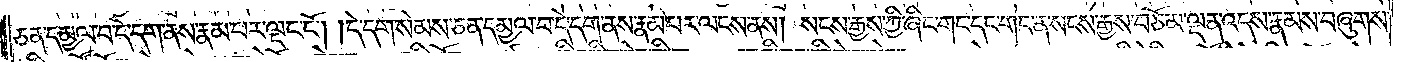ཅན་དམྱལ་བ་དེ་དག་ནས་རྣམ་པར་ལྡང་ངོ༌། །དེ་དག་སེམས་ཅན་དམྱལ་བ་དེ་དག་ནས་རྣམ་པར་ལངས་ནས། སངས་རྒྱས་ཀྱི་ཞིང་གང་དང་གང་ན་སངས་རྒྱས་བཅོམ་ལྡན་འདས་རྣམས་བཞུགས་
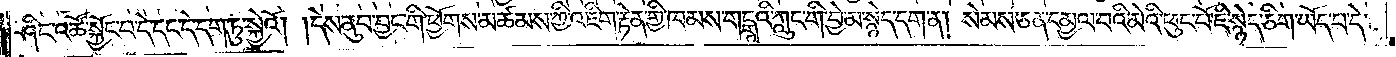ཤིང་འཚོ་སྐྱོང་བ་དེ་དང་དེ་དག་ཏུ་སྐྱེའོ། །དེས་ནུབ་བྱང་གི་ཕྱོགས་མཚམས་ཀྱི་འཇིག་རྟེན་གྱི་ཁམས་གངྒཱའི་ཀླུང་གི་བྱེ་མ་སྙེད་དག་ན། སེམས་ཅན་དམྱལ་བའི་མེའི་ཕུང་པོ་ཇི་སྙེད་ཅིག་ཡོད་པ་དེ་
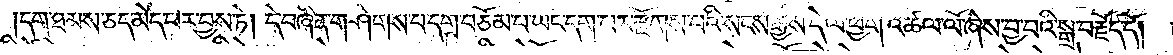དག་ཐམས་ཅད་མེད་པར་བྱས་ཏེ། དེ་བཞིན་གཤེགས་པ་དགྲ་བཅོམ་པ་ཡང་དག་པར་རྫོགས་པའི་སངས་རྒྱས་དེ་ལ་ཕྱག་འཚལ་ལོ་ཞེས་བྱ་བའི་སྒྲ་བརྗོད་དོ། །
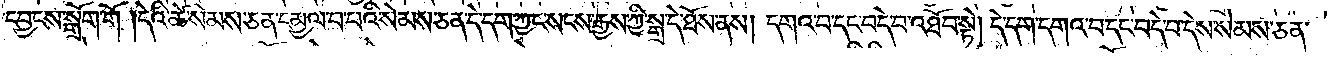དབྱངས་སྒྲག་གོ །དེའི་ཚེ་སེམས་ཅན་དམྱལ་བ་པའི་སེམས་ཅན་དེ་དག་ཀྱང་སངས་རྒྱས་ཀྱི་སྒྲ་དེ་ཐོས་ནས། དགའ་བ་དང་བདེ་བ་འཐོབ་སྟེ། དེ་དག་དགའ་བ་དང་བདེ་བ་དེས་སེམས་ཅན་
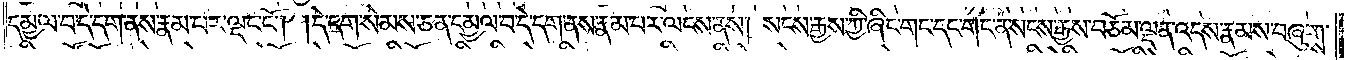དམྱལ་བ་དེ་དག་ནས་རྣམ་པར་ལྡང་ངོ༌། །དེ་དག་སེམས་ཅན་དམྱལ་བ་དེ་དག་ནས་རྣམ་པར་ལངས་ནས་སངས་རྒྱས་ཀྱི་ཞིང་གང་དང་གང་ན། སངས་རྒྱས་བཅོམ་ལྡན་འདས་རྣམས་བཞུགས་
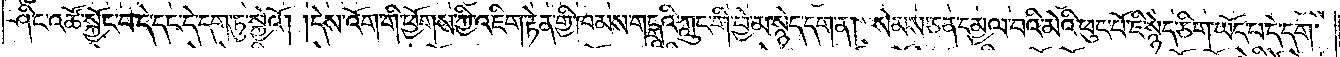ཤིང་འཚོ་སྐྱོང་བ་དེ་དང་དེ་དག་ཏུ་སྐྱེའོ། །དེས་འོག་གི་ཕྱོགས་ཀྱི་འཇིག་རྟེན་གྱི་ཁམས་གངྒཱའི་ཀླུང་གི་བྱེ་མ་སྙེད་དག་ན། སེམས་ཅན་དམྱལ་བའི་མེའི་ཕུང་པོ་ཇི་སྙེད་ཅིག་ཡོད་པ་དེ་དག་
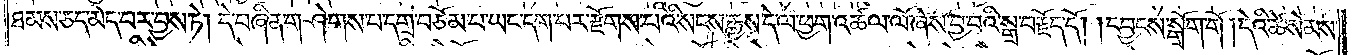ཐམས་ཅད་མེད་པར་བྱས་ཏེ། དེ་བཞིན་གཤེགས་པ་དགྲ་བཅོམ་པ་ཡང་དག་པར་རྫོགས་པའི་སངས་རྒྱས་དེ་ལ་ཕྱག་འཚལ་ལོ་ཞེས་བྱ་བའི་སྒྲ་བརྗོད་དོ། །དབྱངས་སྒྲོག་གོ །དེའི་ཚེ་སེམས་
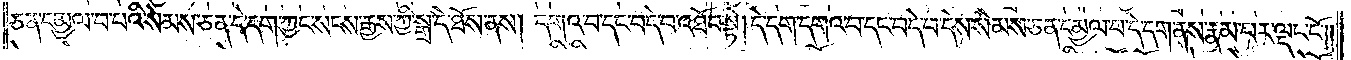ཅན་དམྱལ་བ་པའི་སེམས་ཅན་དེ་དག་ཀྱང་སངས་རྒྱས་ཀྱི་སྒྲ་དེ་ཐོས་ནས། དགའ་བ་དང་བདེ་བ་འཐོབ་སྟེ། དེ་དག་དགའ་བ་དང་བདེ་བ་ངེས་སེམས་ཅན་དམྱལ་བ་དེ་དག་ནས་རྣམ་པར་ལྡང་ངོ༌། །
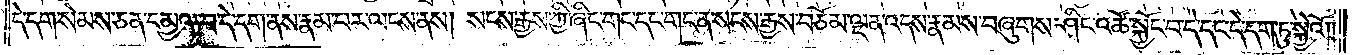དེ་དག་སེམས་ཅན་དམྱལ་བ་དེ་དག་ནས་རྣམ་པར་ལངས་ནས། སངས་རྒྱས་ཀྱི་ཞིང་གང་དང་གང་ན། སངས་རྒྱས་བཅོམ་ལྡན་འདས་རྣམས་བཞུགས་ཤིང་འཚོ་སྐྱོང་བ་དེ་དང་དེ་དག་ཏུ་སྐྱེའོ། །
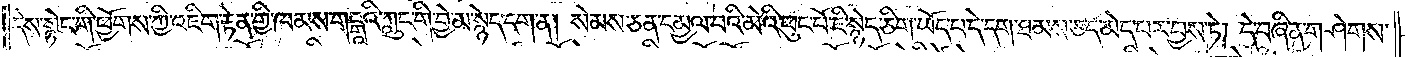དེས་སྟེང་གི་ཕྱོགས་ཀྱི་འཇིག་རྟེན་གྱི་ཁམས་གངྒཱའི་ཀླུང་གི་བྱེ་མ་སྙེད་དག་ན། སེམས་ཅན་དམྱལ་བའི་མེའི་ཕུང་པོ་ཇི་སྙེད་ཅིག་ཡོད་པ་དེ་དག་ཐམས་ཅད་མེད་པར་བྱས་ཏེ། དེ་བཞིན་གཤེགས་
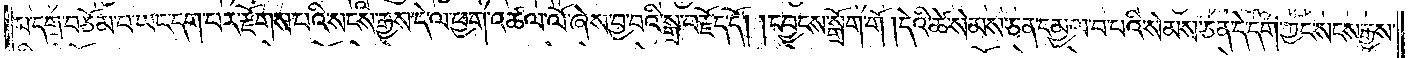པ་དགྲ་བཅོམ་པ་ཡང་དག་པར་རྫོགས་པའི་སངས་རྒྱས་དེ་ལ་ཕྱག་འཚལ་ལོ་ཞེས་བྱ་བའི་སྒྲ་བརྗོད་དོ། །དབྱངས་སྒྲོག་གོ །དེའི་ཚེ་སེམས་ཅན་དམྱལ་བ་པའི་སེམས་ཅན་དེ་དག་ཀྱང་སངས་རྒྱས་
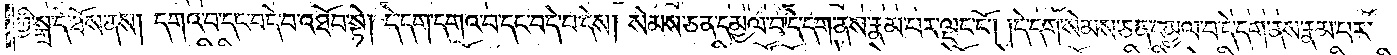ཀྱི་སྒྲ་དེ་ཐོས་ནས། དགའ་བ་དང་བདེ་བ་འཐོབ་སྟེ། དེ་དག་དགའ་བ་དང་བདེ་བ་དེས། སེམས་ཅན་དམྱལ་བ་དེ་དག་ནས་རྣམ་པར་ལྡང་ངོ༌། །དེ་དག་སེམས་ཅན་དམྱལ་བ་དེ་དག་ནས་རྣམ་པར་
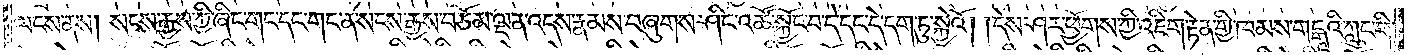ལངས་ནས། སངས་རྒྱས་ཀྱི་ཞིང་གང་དང་གང་ན་སངས་རྒྱས་བཅོམ་ལྡན་འདས་རྣམས་བཞུགས་ཤིང་འཚོ་སྐྱོང་བ་དེ་དང་དེ་དག་ཏུ་སྐྱེའོ། །དེས་ཤར་ཕྱོགས་ཀྱི་འཇིག་རྟེན་གྱི་ཁམས་གངྒཱའི་ཀླུང་གི་
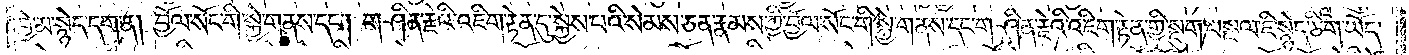བྱེ་མ་སྙེད་དག་ན། བྱོལ་སོང་གི་སྐྱེ་གནས་དང༌། གཤིན་རྗེའི་འཇིག་རྟེན་དུ་སྐྱེས་པའི་སེམས་ཅན་རྣམས་ཀྱི་བྱོལ་སོང་གི་སྐྱེ་གནས་དང་གཤིན་རྗེའི་འཇིག་རྟེན་གྱི་སྡུག་བསྔལ་ཇི་སྙེད་ཅིག་ཡོད་
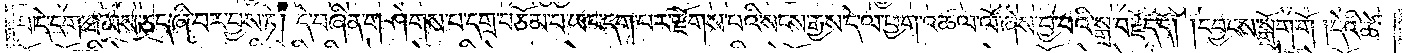པ་དེ་དག་ཐམས་ཅད་ཞི་བར་བྱས་ཏེ། དེ་བཞིན་གཤེགས་པ་དགྲ་བཅོམ་པ་ཡང་དག་པར་རྫོགས་པའི་སངས་རྒྱས་དེ་ལ་ཕྱག་འཚལ་ལོ་ཞེས་བྱ་བའི་སྒྲ་བརྗོད་དོ། །དབྱངས་སྒྲོག་གོ །དེའི་ཚེ་
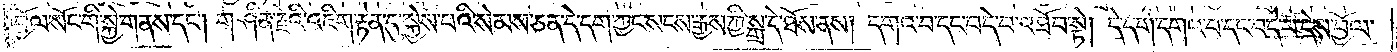བྱོལ་སོང་གི་སྐྱེ་གནས་དང༌། གཤིན་རྗེའི་འཇིག་རྟེན་དུ་སྐྱེས་པའི་སེམས་ཅན་དེ་དག་ཀྱང་སངས་རྒྱས་ཀྱི་སྒྲ་དེ་ཐོས་ནས། དགའ་བ་དང་བདེ་བ་འཐོབ་སྟེ། དེ་དག་དགའ་བ་དང་བདེ་བ་དེས་བྱོལ་
